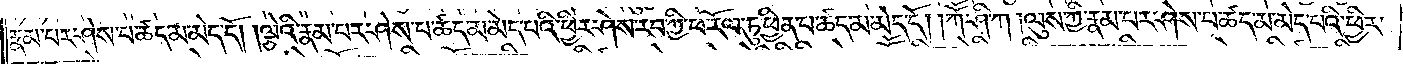རྣམ་པར་ཤེས་པ་ཚད་མ་མེད་དོ། །ལྕེའི་རྣམ་པར་ཤེས་པ་ཚད་མ་མེད་པའི་ཕྱིར་ཤེས་རབ་ཀྱི་ཕ་རོལ་ཏུ་ཕྱིན་པ་ཚད་མ་མེད་དོ། །ཀཽ་ཤི་ཀ །ལུས་ཀྱི་རྣམ་པར་ཤེས་པ་ཚད་མེད་མ་པའི་ཕྱིར་
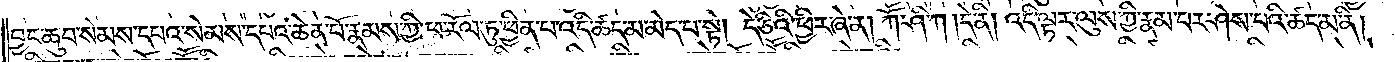བྱང་ཆུབ་སེམས་དཔའ་སེམས་དཔའ་ཆེན་པོ་རྣམས་ཀྱི་ཕ་རོལ་ཏུ་ཕྱིན་པ་འདི་ཚད་མ་མེད་པ་སྟེ། དེ་ཅིའི་ཕྱིར་ཞེ་ན། ཀཽ་ཤི་ཀ །དེ་ནི། འདི་ལྟར་ལུས་ཀྱི་རྣམ་པར་ཤེས་པའི་ཚད་མ་ནི།
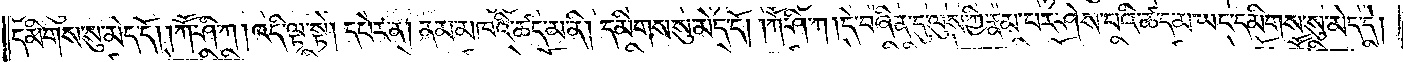དམིགས་སུ་མེད་དོ། །ཀཽ་ཤི་ཀ །འདི་ལྟ་སྟེ། དཔེར་ན། ནམ་མཁའི་ཚད་མ་ནི། དམིགས་སུ་མེད་དོ། །ཀཽ་ཤི་ཀ །དེ་བཞིན་དུ་ལུས་ཀྱི་རྣམ་པར་ཤེས་པའི་ཚད་མ་ཡང་དམིགས་སུ་མེད་དེ།
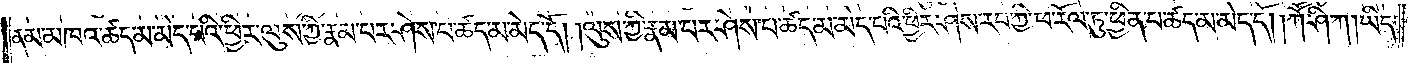ནམ་མཁའ་ཚད་མ་མེད་པའི་ཕྱིར་ལུས་ཀྱི་རྣམ་པར་ཤེས་པ་ཚད་མ་མེད་དོ། །ལུས་ཀྱི་རྣམ་པར་ཤེས་པ་ཚད་མ་མེད་པའི་ཕྱིར་ཤེས་རབ་ཀྱི་ཕ་རོལ་ཏུ་ཕྱིན་པ་ཚད་མ་མེད་དོ། །ཀཽ་ཤི་ཀ། ཡིད་
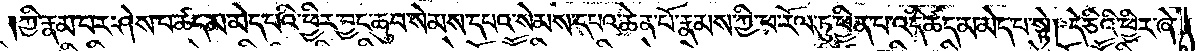ཀྱི་རྣམ་པར་ཤེས་པ་ཚད་མ་མེད་པའི་ཕྱིར་བྱང་ཆུབ་སེམས་དཔའ་སེམས་དཔའ་ཆེན་པོ་རྣམས་ཀྱི་ཕ་རོལ་ཏུ་ཕྱིན་པ་འདི་ཚད་མ་མེད་པ་སྟེ། དེ་ཅིའི་ཕྱིར་ཞེ་
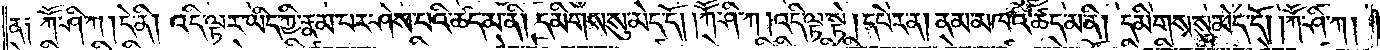ན༏ ཀཽ་ཤི་ཀ། དེ་ནི། འདི་ལྟར་ཡིད་ཀྱི་རྣམ་པར་ཤེས་པའི་ཚད་མ་ནི། དམིགས་སུ་མེད་དོ། །ཀཽ་ཤི་ཀ །འདི་ལྟ་སྟེ། དཔེར་ན། ནམ་མཁའི་ཚད་མ་ནི། དམིགས་སུ་མེད་དོ། །ཀཽ་ཤི་ཀ།
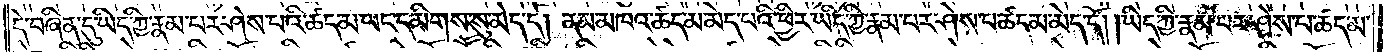དེ་བཞིན་དུ་ཡིད་ཀྱི་རྣམ་པར་ཤེས་པའི་ཚད་མ་ཡང་དམིགས་སུ་མེད་དེ། ནམ་མཁའ་ཚད་མེད་པའི་ཕྱིར་ཡིད་ཀྱི་རྣམ་པར་ཤེས་པ་ཚད་མ་མེད་དོ། །ཡིད་ཀྱི་རྣམ་པར་ཤེས་པ་ཚད་མ་
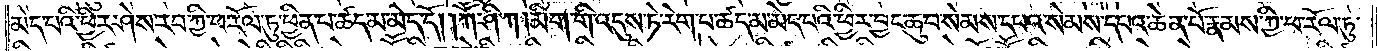མེད་པའི་ཕྱིར་ཤེས་རབ་ཀྱི་ཕ་རོལ་ཏུ་ཕྱིན་པ་ཚད་མ་མེད་དོ། །ཀཽ་ཤི་ཀ །མིག་གི་འདུས་ཏེ་རེག་པ་ཚད་མ་མེད་པའི་ཕྱིར་བྱང་ཆུབ་སེམས་དཔའ་སེམས་དཔའ་ཆེན་པོ་རྣམས་ཀྱི་ཕ་རོལ་ཏུ་
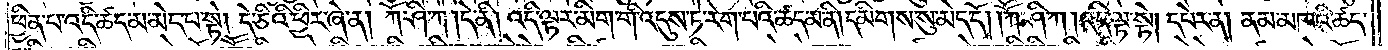ཕྱིན་པ་འདི་ཚད་མ་མེད་པ་སྟེ། དེ་ཅིའི་ཕྱིར་ཞེ་ན། ཀཽ་ཤི་ཀ །དེ་ནི། འདི་ལྟར་མིག་གི་འདུས་ཏེ་རེག་པའི་ཚད་མ་ནི། དམིགས་སུ་མེད་དོ། །ཀཽ་ཤི་ཀ །འདི་ལྟ་སྟེ། དཔེར་ན། ནམ་མཁའི་ཚད་
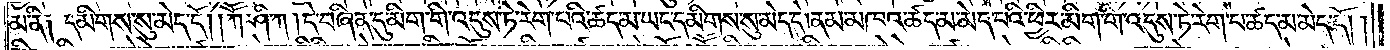མ་ནི༏ དམིགས་སུ་མེད་དོ། །ཀཽ་ཤི་ཀ །དེ་བཞིན་དུ་མིག་གི་འདུས་ཏེ་རེག་པའི་ཚད་མ་ཡང་དམིགས་སུ་མེད་དེ། ནམ་མཁའ་ཚད་མ་མེད་པའི་ཕྱིར་མིག་གི་འདུས་ཏེ་རེག་པ་ཚད་མ་མེད་དོ། །
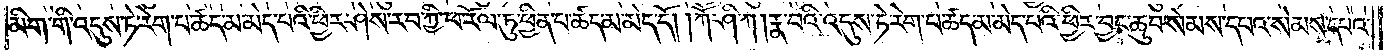མིག་གི་འདུས་ཏེ་རེག་པ་ཚད་མ་མེད་པའི་ཕྱིར་ཤེས་རབ་ཀྱི་ཕ་རོལ་ཏུ་ཕྱིན་པ་ཚད་མ་མེད་དོ། །ཀཽ་ཤི་ཀ །རྣ་བའི་འདུས་ཏེ་རེག་པ་ཚད་མ་མེད་པའི་ཕྱིར་བྱང་ཆུབ་སེམས་དཔའ་སེམས་དཔའ་
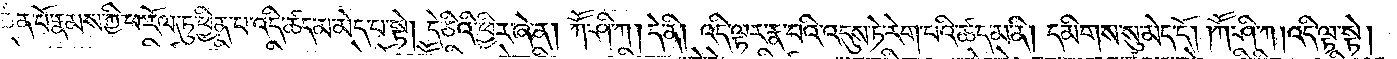ཆེན་པོ་རྣམས་ཀྱི་ཕ་རོལ་ཏུ་ཕྱིན་པ་འདི་ཚད་མ་མེད་པ་སྟེ། དེ་ཅིའི་ཕྱིར་ཞེ་ན། ཀཽ་ཤི་ཀ། དེ་ནི། འདི་ལྟར་རྣ་བའི་འདུས་ཏེ་རེག་པའི་ཚད་མ་ནི། དམིགས་སུ་མེད་དོ། །ཀཽ་ཤི་ཀ། འདི་ལྟ་སྟེ།
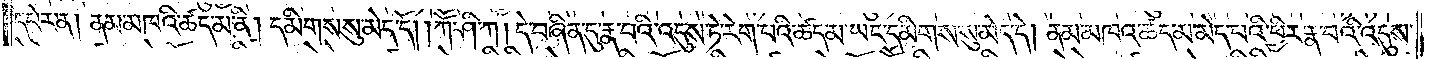དཔེར་ན། ནམ་མཁའི་ཚད་མ་ནི། དམིགས་སུ་མེད་དོ། །ཀཽ་ཤི་ཀ། དེ་བཞིན་དུ་རྣ་བའི་འདུས་ཏེ་རེག་པའི་ཚད་མ་ཡང་དམིགས་སུ་མེད་དེ། ནམ་མཁའ་ཚད་མ་མེད་པའི་ཕྱིར་རྣ་བའི་འདུས་
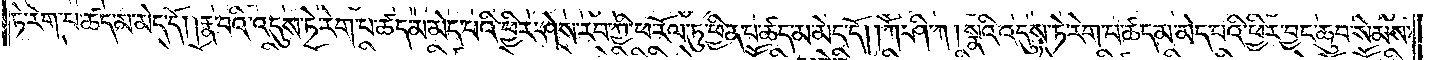ཏེ་རེག་པ་ཚད་མ་མེད་དོ། །རྣ་བའི་འདུས་ཏེ་རེག་པ་ཚད་མ་མེད་པའི་ཕྱིར་ཤེས་རབ་ཀྱི་ཕ་རོལ་ཏུ་ཕྱིན་པ་ཚད་མ་མེད་དོ། །ཀཽ་ཤི་ཀ །སྣའི་འདུས་ཏེ་རེག་པ་ཚད་མ་མེད་པའི་ཕྱིར་བྱང་ཆུབ་སེམས་
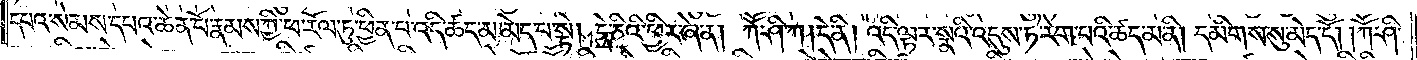དཔའ་སེམས་དཔའ་ཆེན་པོ་རྣམས་ཀྱི་ཕ་རོལ་ཏུ་ཕྱིན་པ་འདི་ཚད་མ་མེད་པ་སྟེ། དེ་ཅིའི་ཕྱིར་ཞེ་ན། ཀཽ་ཤི་ཀ །དེ་ནི། འདི་ལྟར་སྣའི་འདུས་ཏེ་རེག་པའི་ཚད་མ་ནི། དམིགས་སུ་མེད་དོ། །ཀཽ་ཤི་
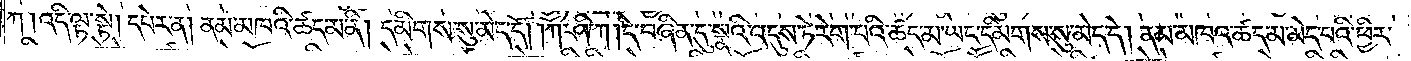ཀ ༏འདི་ལྟ་སྟེ། དཔེར་ན། ནམ་མཁའི་ཚད་མ་ནི། དམིགས་སུ་མེད་དོ། །ཀཽ་ཤི་ཀ །དེ་བཞིན་དུ་སྣའི་འདུས་ཏེ་རེག་པའི་ཚད་མ་ཡང་དམིགས་སུ་མེད་དེ། ནམ་མཁའ་ཚད་མ་མེད་པའི་ཕྱིར་
